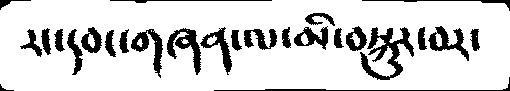རང་དབང་གཞན་ལ་མི་བསྐུར་བར་
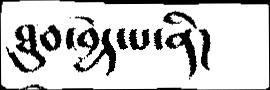ཐུབ་བྱེད་པ་ནི།
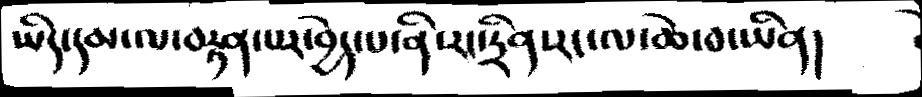ཡིད་དམ་ལ་བརྟན་པར་བྱེད་པ་ནི་རང་དྲིན་རང་ལ་ཆེ་བ་ཡིན།
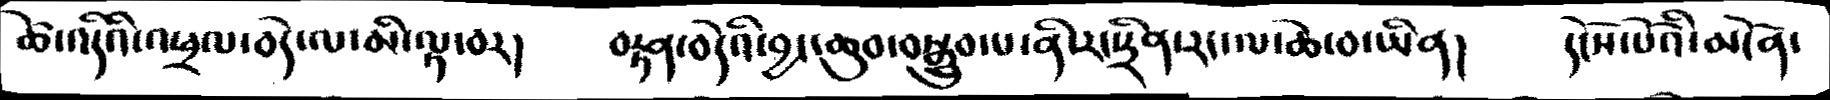ཚེ་འདིའི་འཕྲལ་བདེ་ལ་མི་ལྟ་བར།    བརྟན་བདེའི་བྱང་ཆུབ་བསྒྲུབ་པ་ནི་རང་དྲིན་རང་ལ་ཆེ་བ་ཡིན།       དངོས་པོའི་མངོན་
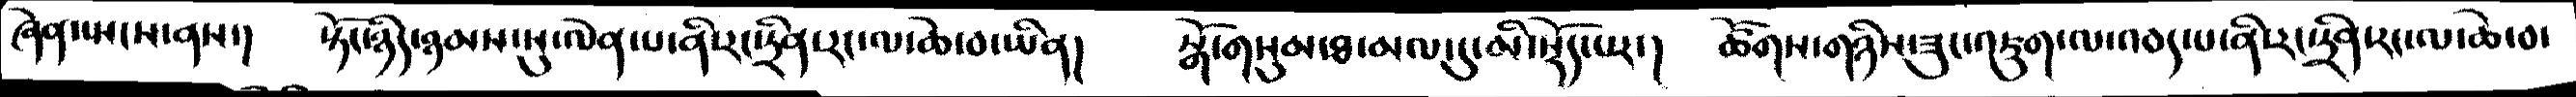ཞེས་སྤངས་ནས་།    སྟོང་ཉིད་ཉམས་སུ་ལེན་པ་ནི་རང་དྲིན་རང་ལ་ཆེ་བ་ཡིན།     སྒོ་གསུམ་ཐ་མལ་དུ་མི་སྡོད་པར་།    ཚོགས་གཉིས་ཟུང་འཇུག་ལ་འབད་པ་ནི་རང་དྲིན་རང་ལ་ཆེ་བ་
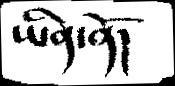ཡིན་ནོ།
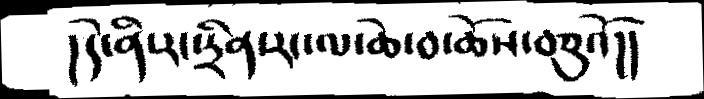།དེ་ནི་རང་དྲིན་རང་ལ་ཆེ་བ་ཆོས་བཅུའོ།།
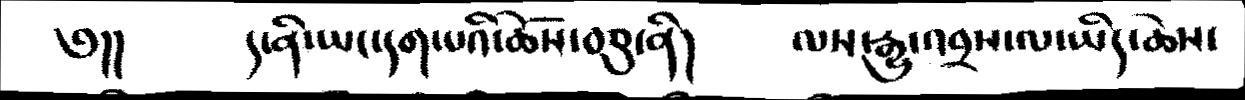༅།།   ད་ནི་ཡང་དག་པའི་ཆོས་བཅུ་ནི།  ལས་རྒྱུ་འབྲས་ལ་ཡིད་ཆེས་
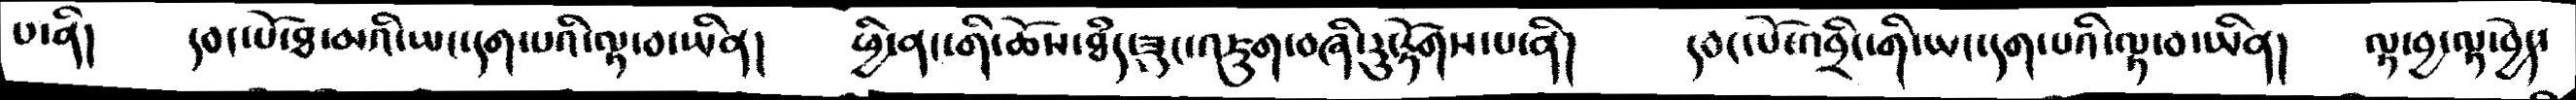པ་ནི།  དབང་པོ་ཐ་མའི་ཡང་དག་པའི་ལྟ་བ་ཡིན།  ཕྱི་ནང་གི་ཆོས་ཐཾད་ཟུང་འཇུག་བཞི་རུ་རྟོགས་པ་ནི།  དབང་པོ་འབྲིང་གི་ཡང་དག་པའི་ལྟ་བ་ཡིན།  ལྟ་བྱ་ལྟ་བྱེད་
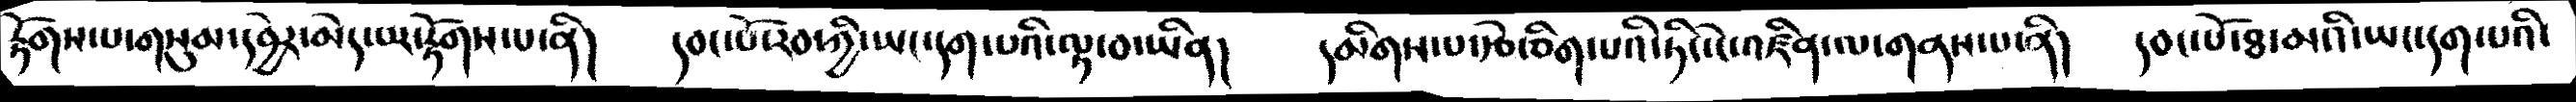རྟོགས་པ་གསུམ་དབྱེར་མེད་པར་རྟོགས་པ་ནི།  དབང་པོ་རབ་ཀྱི་ཡང་དག་པའི་ལྟ་བ་ཡིན།  དམིགས་པ་རྩེ་ཅིག་པའི་ཏིང་ངེ་འཛིན་ལ་གནས་པ་ནི། དབང་པོ་ཐ་མའི་ཡང་དག་པའི་
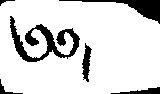༄༅།
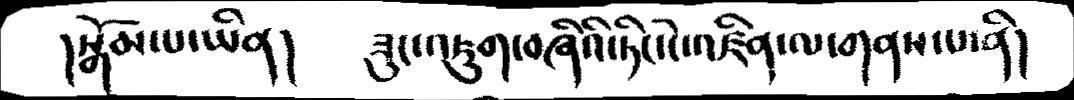།སྒོམ་པ་ཡིན།    ཟུང་འཇུག་བཞིའི་ཏིང་ངེ་འཛིན་ལ་གནས་པ་ནི།
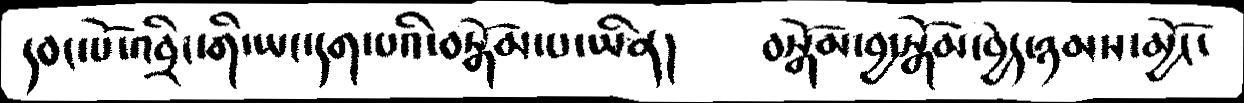དབང་པོ་འབྲིང་གི་ཡང་དག་པའི་བསྒོམ་པ་ཡིན།   བསྒོམ་བྱ་སྒོམ་བྱེད་ཉམས་མྱོང་
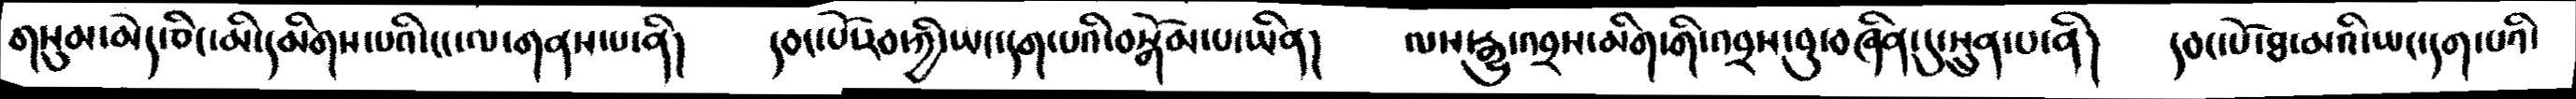གསུམ་མེད་ཅིང་མི་དམིགས་པའི་ངང་ལ་གནས་པ་ནི།   དབང་པོ་རབ་ཀྱི་ཡང་དག་པའི་བསྒོམ་པ་ཡིན།    ལས་རྒྱུ་འབྲས་མིག་གི་འབྲས་བུ་བཞིན་དུ་སྲུན་པ་ནི།     དབང་པོ་ཐ་མའི་ཡང་དག་པའི་
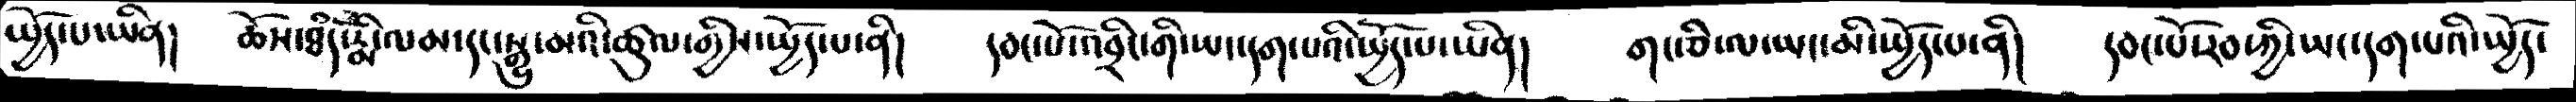སྤྱོད་པ་ཡིན།   ཆོས་ཐཾད་རྨི་ལམ་དང་སྒྱུ་མའི་ཚུལ་གྱིས་སྤྱོད་པ་ནི།    དབང་པོ་འབྲིང་གི་ཡང་དག་པའི་སྤྱོད་པ་ཡིན།    གང་ཅི་ལ་ཡང་མི་སྤྱོད་པ་ནི།     དབང་པོ་རབ་ཀྱི་ཡང་དག་པའི་སྤྱོད་
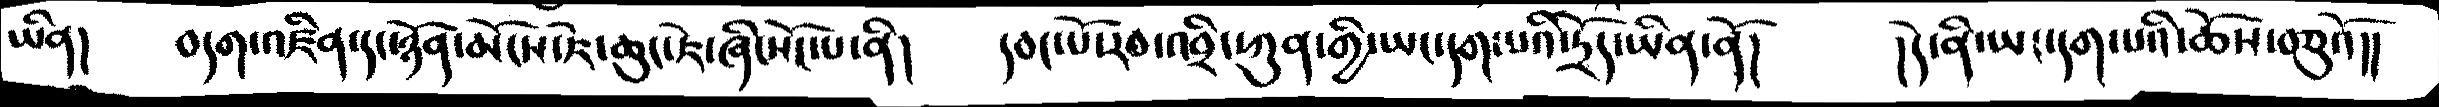ཡིན།    བདག་འཛིན་དང་ཉོན་མོངས་ཇེ་ཆུང་ཇེ་ཞིངསོང་པ་ནི།   དབང་པོ་རབ་འབྲི་ཀུན་གྱི་ཡང་དག་པའི་དྲོད་ཡིན་ནོ།   །དེ་ནི་ཡང་དག་པའི་ཆོས་བཅུའོ།།
